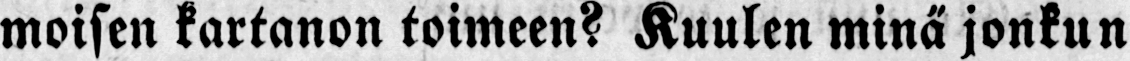moisen kartanon toimeen? Kuulen minä jonkun
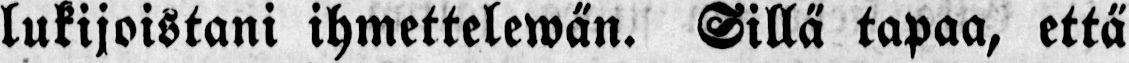lukijoistani ihmettelewän. Sillä tapaa, että
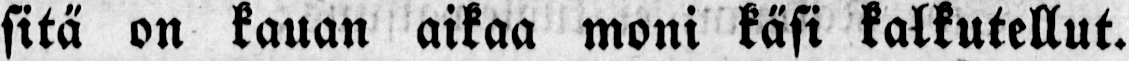sitä on kauan aikaa moni käsi kalkutellut.
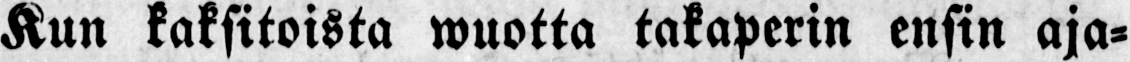Kun kaksitoista wuotta takaperin ensin aja-
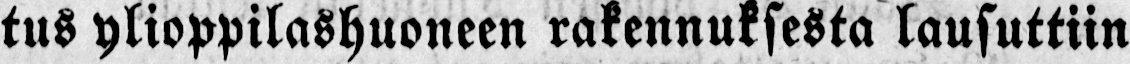tus ylioppilashuoneen rakennuksesta lausuttiin
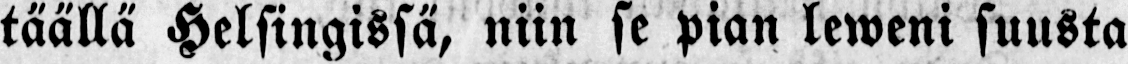tää llä Helsingissä, niin se pian leweni suusta
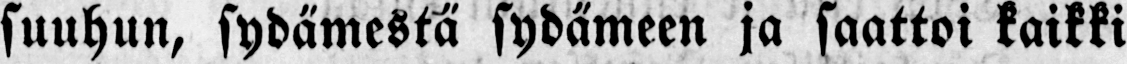suuhun, sydämestä sydämeen ja saattoi kaikki
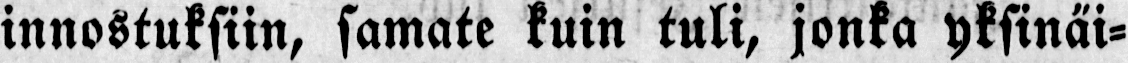innostuksiin, samate kuin tuli, jonka yksinäi-
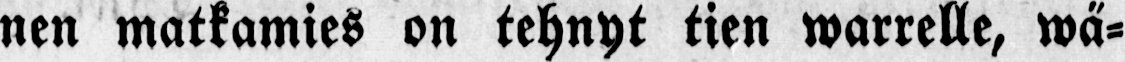nen matkamies on tehnyt tien warrelle, wä-
